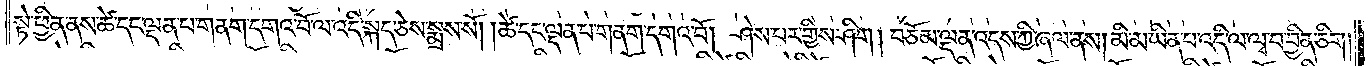སྟེ་ཕྱིན་ནས་ཚེ་དང་ལྡན་པ་གནག་དགའ་བོ་ལ་འདི་སྐད་ཅེས་སྨྲས་སོ། །ཚེ་དང་ལྡན་པ་གནག་དགའ་བོ། ཤེས་པར་གྱིས་ཤིག། བཅོམ་ལྡན་འདས་ཀྱི་ཞལ་ནས། མི་མ་ཡིན་པ་འདི་ལ་ལྭ་བ་བྱིན་ཅིག།
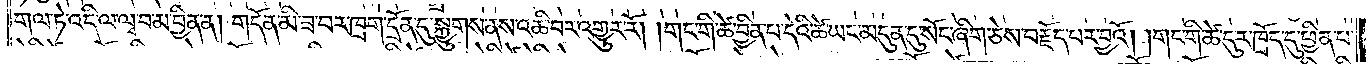གལ་ཏེ་འདི་ལ་ལྭ་བ་མ་བྱིན་ན། གདོན་མི་ཟ་བར་ཁྲག་དྲོན་དུ་སྐྱུགས་ནས་འཆི་བར་འགྱུར་རོ། །གང་གི་ཚེ་བྱིན་པ་དེའི་ཚེ་ཡང་མདུན་དུ་སོང་ཞིག་ཅེས་བརྗོད་པར་བྱའོ། །གང་གི་ཚེ་དུར་ཁྲོད་དུ་ཕྱིན་པ་
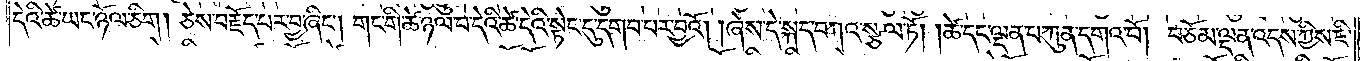དེའི་ཚེ་ཡང་ཉོལ་ཅིག། ཅེས་བརྗོད་པར་བྱ་ཞིང༌། གང་གི་ཚེ་ཉལ་བ་དེའི་ཚེ་དེའི་སྟེང་དུ་དགབ་པར་བྱའོ། །ཞེས་དེ་སྐད་བཀའ་སྩལ་ཏོ། །ཚེ་དང་ལྡན་པ་ཀུན་དགའ་བོ། བཅོམ་ལྡན་འདས་ཀྱིས་ཇི་
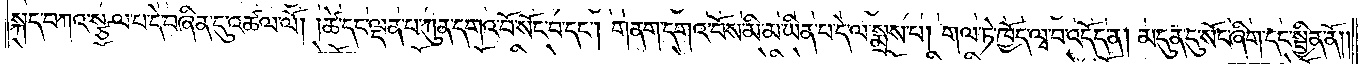སྐད་བཀའ་སྩལ་པ་དེ་བཞིན་དུ་འཚལ་ལོ། །ཚེ་དང་ལྡན་པ་ཀུན་དགའ་བོ་སོང་བ་དང༌། གནག་དགའ་བོས་མི་མ་ཡིན་པ་དེ་ལ་སྨྲས་པ། གལ་ཏེ་ཁྱོད་ལྭ་བ་འདོད་ན། མདུན་དུ་སོང་ཞིག་དང་སྦྱིན་ནོ༎
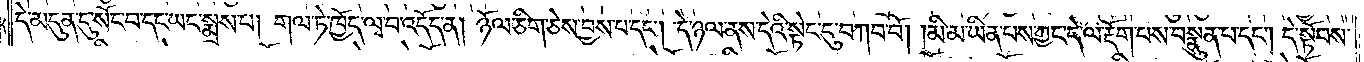དེ་མདུན་དུ་སོང་བ་དང་ཡང་སྨྲས་པ། གལ་ཏེ་ཁྱོད་ལྭ་བ་འདོད་ན། ཉོལ་ཅིག་ཅེས་བྱས་པ་དང༌། དེ་ཉལ་ནས་དེའི་སྟེང་དུ་བཀབ་བོ། །མི་མ་ཡིན་པས་ཀྱང་དེ་ལ་རྡོག་པས་བསྣུན་པ་དང༌། དེ་སྟོབས་
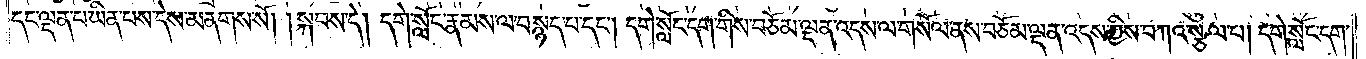དང་ལྡན་པ་ཡིན་པས་དེས་མནགས་སོ། །སྐབས་དེ། དགེ་སློང་རྣམས་ལ་བསྙད་པ་དང༌། དགེ་སློང་དག་གིས་བཅོམ་ལྡན་འདས་ལ་གསོལ་ནས་བཅོམ་ལྡན་འདས་ཀྱིས་བཀའ་སྩལ་པ། དགེ་སློང་དག་
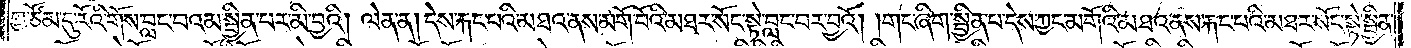གྱ་ཙོམ་དུ་རོའི་གོས་བླང་བའམ་སྦྱིན་པར་མི་བྱའི། ལེན་ན། དེས་རྐང་པའི་མཐའ་ནས་མགོ་བོའི་མཐར་སོང་སྟེ་བླང་བར་བྱའོ། །གང་ཞིག་སྦྱིན་པ་དེས་ཀྱང་མགོའི་མཐའ་ནས་རྐང་པའི་མཐར་སོང་སྟེ་སྦྱིན་
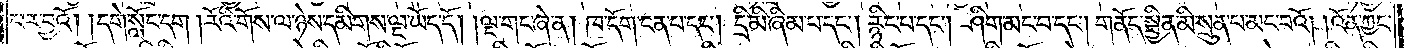པར་བྱའོ། །དགེ་སློང་དག །རོའི་གོས་ལ་ཉེས་དམིགས་ལྔ་ཡོད་དོ། །ལྔ་གང་ཞེ་ན། ཁ་དོག་ངན་པ་དང༌། དྲི་མི་ཞིམ་པ་དང༌། རྙིང་པ་དང༌། ཤིག་མང་བ་དང༌། གནོད་སྦྱིན་མི་སྲུན་པ་མང་བའོ། །འོན་ཀྱང་
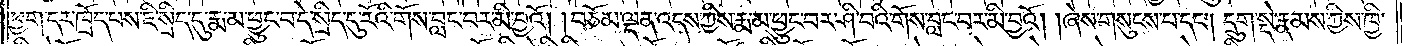ཕྱག་དར་ཁྲོད་པས་ཇི་སྲིད་དུ་རྨ་མ་ཕྱུང་བ་དེ་སྲིད་དུ་རོའི་གོས་བླང་བར་མི་བྱའོ། །བཅོམ་ལྡན་འདས་ཀྱིས་རྨ་མ་ཕྱུང་བར་ཤི་བའི་གོས་བླང་བར་མི་བྱའོ། །ཞེས་གསུངས་པ་དང༌། དྲུག་སྡེ་རྣམས་ཀྱིས་ཁྱི་
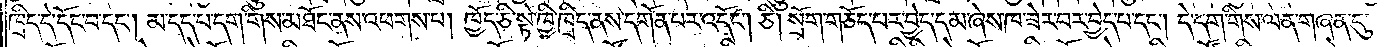ཁྲིད་དེ་དོང་བ་དང༌། མ་དད་པ་དག་གིས་མཐོང་ནས་འཕགས་པ། ཁྱོད་ཅི་སྟེ་ཁྱི་ཁྲིད་ནས་དགོན་པར་འདོང༌། །ཅི་སྲོག་གཅོད་པར་བྱེད་དམ་ཞེས་ཁ་ཟེར་བར་བྱེད་པ་དང༌། དེ་དག་གིས་ལན་གཞན་དུ་
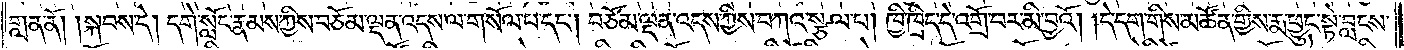གླན་ནོ། །སྐབས་དེ། དགེ་སློང་རྣམས་ཀྱིས་བཅོམ་ལྡན་འདས་ལ་གསོལ་པ་དང༌། བཅོམ་ལྡན་འདས་ཀྱིས་བཀའ་སྩལ་པ། ཁྱི་ཁྲིད་དེ་འགྲོ་བར་མི་བྱའོ། །དེ་དག་གིས་མཚོན་གྱིས་རྨ་ཕྱུང་སྟེ་བླངས་
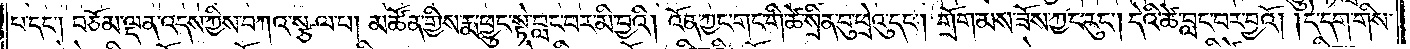པ་དང༌། བཅོམ་ལྡན་འདས་ཀྱིས་བཀའ་སྩལ་པ། མཚོན་གྱིས་རྨ་ཕྱུང་སྟེ་བླང་བར་མི་བྱའི། འོན་ཀྱང་གང་གི་ཚེ་སྲིན་བུ་ཕྲེའུ་དང༌། གྲོག་མས་ཟོས་ཀྱང་རུང༌། དེའི་ཚེ་བླང་བར་བྱའོ། །དེ་དག་གིས་
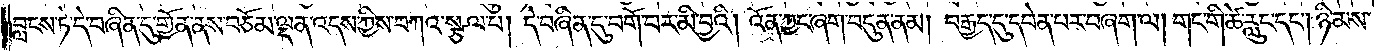བླངས་ཏེ་དེ་བཞིན་དུ་གྱོན་ནས་བཅོམ་ལྡན་འདས་ཀྱིས་བཀའ་སྩལ་པ། དེ་བཞིན་དུ་བགོ་བར་མི་བྱའི། འོན་ཀྱང་ཞག་བདུན་ནམ། བརྒྱད་དུ་དབེན་པར་བཞག་ལ། གང་གི་ཚེ་རླུང་དང༌། ཉི་མས་
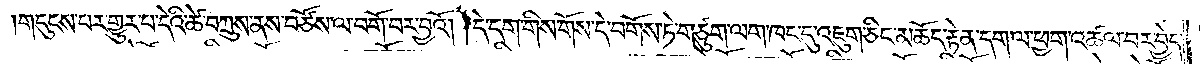གདུངས་པར་གྱུར་པ་དེའི་ཚེ་བཀྲུས་ནས་བཙོས་ལ་བགོ་བར་བྱའོ། །དེ་དག་གིས་གོས་དེ་བགོས་ཏེ་གཙུག་ལག་ཁང་དུ་འཇུག་ཅིང་མཆོད་རྟེན་དག་ལ་ཕྱག་འཚལ་བར་བྱེད་
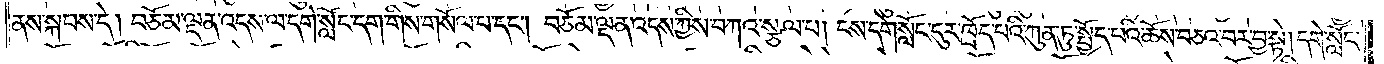ནས་སྐབས་དེ། བཅོམ་ལྡན་འདས་ལ་དགེ་སློང་དག་གིས་གསོལ་པ་དང༌། བཅོམ་ལྡན་འདས་ཀྱིས་བཀའ་སྩལ་པ། ངས་དགེ་སློང་ངུར་ཁྲོད་པའི་ཀུན་ཏུ་སྤྱོད་པའི་ཆོས་བཅའ་བར་བྱ་སྟེ། དགེ་སློང་
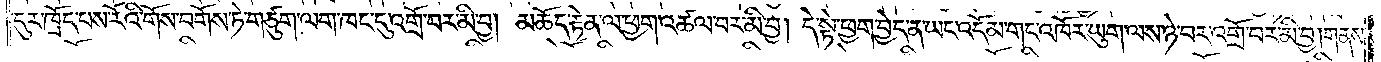དུར་ཁྲོད་པས་རོའི་གོས་བགོས་ཏེ་གཙུག་ལག་ཁང་དུ་འགྲོ་བར་མི་བྱ། མཆོད་རྟེན་ལ་ཕྱག་འཚལ་བར་མི་བྱ། དེ་སྟེ་ཕྱག་བྱེད་ན་ཡང་འདོམ་གང་འཁོར་ཡུག་ལས་ཉེ་བར་འགྲོ་བར་མི་བྱ། གནས་
